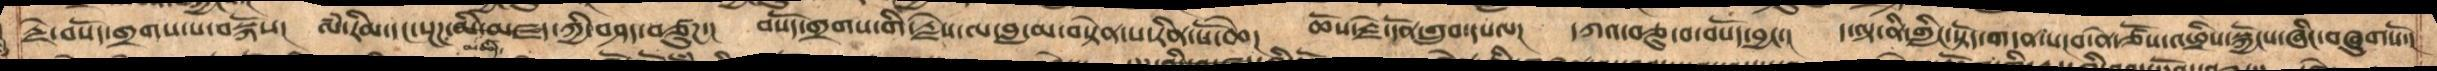རྗེ་བསོད་གྲགས་པ་བསྐོས། ལཾ་རིམ་དང་སྔཌ་མི་མཚིད་མཛད་ཀྱི་བཤད་བཙུཌ་།  བསོད་གྲགས་གི་རྗེས་ལ་བླ་མ་བསྟེན་པ་རིན་པོ་ཆེ། ཆོས་རྗེ་དོན་གྲུབ་དཔལ། དཀའ་བཅུ་བ་བསོད་བྱང་།  ད་ལྟ་ནི་གླིང་སྟོད་གདན་ས།བ་ནེ་ཙོས་འཕྲིས་སྐྱོངས་ཞིང་བཞུགསོ་།
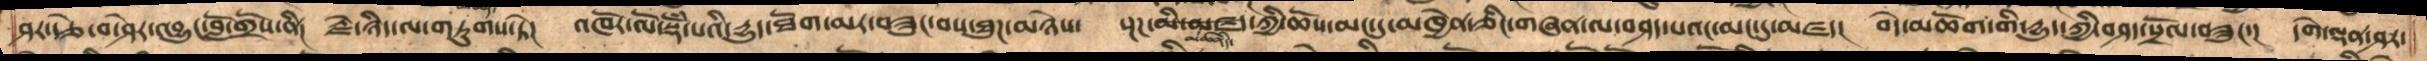ཤར་རྩེ་བ་ཤེར་འབྱུང་བློ་གྲོས་ནི། རྗེ་ཉིད་ལ་གཏུགས་ཏེ། འཁོར་ལོ་སྡོཾ་པའི་དྱུད་ཐོག་མར་བཟུང་བས་ཐུཌ་མཉེས་  སྔཌ་མི་མཛད་ཀྱི་ཆོས་མང་དུ་མཁྱེན་ཅིང་གཞན་ལ་བཤད་པའང་མང་དུ་མཛད། བདེ་མཆོག་གི་དྱུད་ཀྱི་བཤད་སྲོལ་བཟུང་།  དགེ་ལྡན་ཤར་
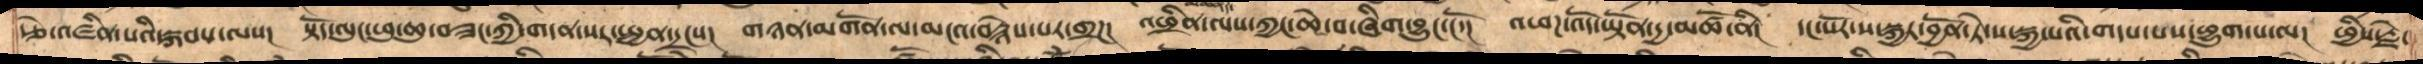རྩེ་འཛིན་པའི་སྐབས་ལས།  སྟོད་ལུང་ཕུ་ཆུ་བཟང་ཀྱི་གདན་སར་སྤྱན་དྲངས། གཉན་མགོན་ལ་མངའ་བརྙེས་པར་གྲཌ། འཕྲིས་ལས་ཀྱང་ཆེ་བ་ཞིག་བྱུང་ངོ་།། འཕཌ་འོད་ཡྟོན་དྱ་མཚོ་ནི། དང་པོར་ས་སྐྱར་བྱོན་ཏེ་ས་སྐྱ་པའི་གདས་པས་ཕྱུག་པ་ལ། ཕྱིས་རྗེ་
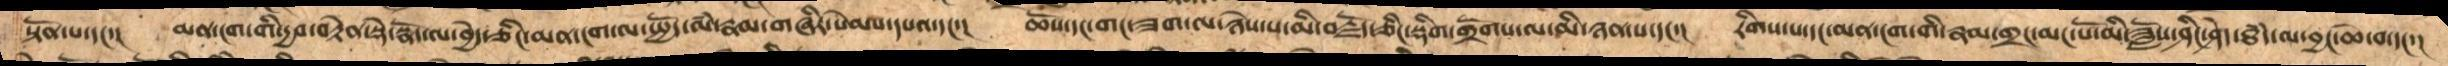སྟོན་པ་དང་།  མན་ངག་གི་དྱབ་བརྟེན་སྡེ་སྣོད་ལ་བྱེད་ཅིང་མན་ངག་ལ་སྤྱོད་ལཾ་རྣམ་གཞིར་སེམས་དཔའ་དང་།  ཆོས་དང་གང་ཟག་ལ་ཉེས་པ་མི་བརྗོད་ཅིང་སྡིག་གྲོགས་ལ་མི་ཉན་པ་དང་།  རིགས་པ་དང་མན་ངག་གི་རྣམ་གྲང་མང་པོ་མི་ཟློས་ཤིང་ཤེད་ཐཾད་ལ་བྱང་ཆེ་བ་དང་།
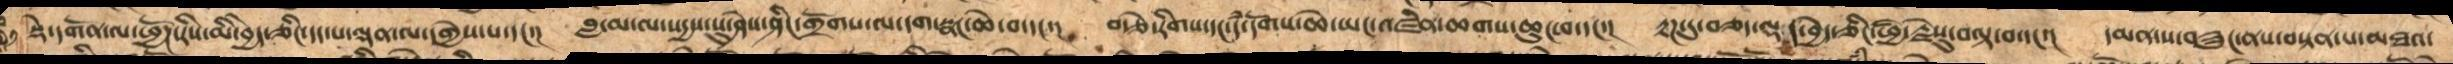སྡེ་དགོན་ལ་ཕྱོཌ་རིས་མི་བྱེད་ཅིང་དད་པ་ལྡན་ལ་དགྱེས་པ་དང་། བླ་མ་ལ་སདྱས་སུ་ཤེས་ཤིང་གྲོགས་ལ་དག་སྣང་ཆེ་བ་དང་། བརྩེ་རིགས་དང་དཾ་དོགས་ཆེ་ཡང་འཛིན་ཆགས་ཆུང་བ་དང་། རྟཌ་དུ་བཅད་ལྡར་བྱེད་ཅིང་ཕྱི་རྗེསུ་བལྟ་བ་དང། དམན་ས་བཟུང་ནས་བསྟན་པ་མཐའ་
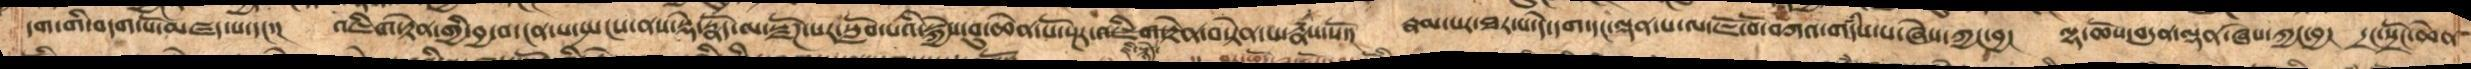དག་གི་བདག་པོ་མཛད་པ་དང་། འཇིག་རྟེན་གྱི་བྱ་བ་ངན་པ་སྤངས་ནས་སྡེ་སྣོད་ལ་སྫོཌ་པར་སློབ་པའི་སྐྱེས་བུ་ཆེན་པོ་སྔར་འཇིག་རྟེན་བསྟེན་པ་རྣཾས་སོ་།  རྣམ་པར་ཐར་པ་དེ་དག་དང་ལྡན་པ་ལ་ཇོ་བོ་བཀའ་གདཾས་པ་ཞེས་ཀྱང་བྱ། ལྷ་ཆོས་བདུན་ལྡན་ཞེས་ཀྱང་བྱ། དྲང་སྲོང་ཆེན
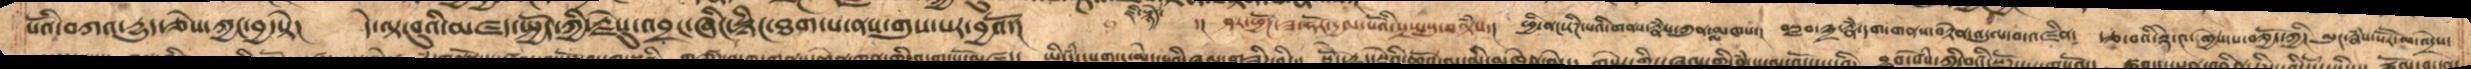པོའི་བཀའ་དྱུད་ཅེས་ཀྱང་བྱ་སྟེ། དེ་ལྟ་བུའི་མཛད་སྤྱོད་ཀྱི་རྗེསུ་འབྲང་ཞིང་སྙིང་ཐག་པ་ནས་གུས་པར་བྱའོ།  ་། ཤར་ཕྱོཌ་ཟ་ཧོར་དྱལ་པོའི་སྲས་སུ་བལྟཾས།  ཕྱི་ནང་རིཌ་པའི་གནས་རྣཾས་ཀུན་ལ་མཁས།  བསླབ་༣་རྣཾ་དག་གནས་བརྟེན་འདུལ་བ་འཛིན།  རྩ་བའི་སྡེ་༤་གྱེས་པ་བཅྱོད་ཀྱི།  ལུང་རྣཾས་སཽར་མ་འདྲེས་
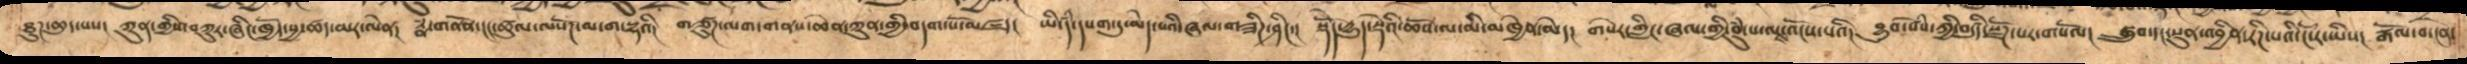ཐུཌ་ཆུད་པས།  ཀུན་གྱིས་བཀུར་ཞིང་ཁྱོད་སྱ་ཚད་མར་ལེན།  རྣཾ་གནོན་ངང་ཚུལ་ལསོཌ་མ་ག་དྷའི།  གཙུཌ་ལག་གནས་ཆེན་ཀུན་གྱི་བདག་པོ་མཛད།  ཡི་དཾ་དཔག་ཏུ་མེད་པའི་ཞལ་གཟིཌ་ཤིང་།  སྡེོད་དྱུད་སྡེའི་ཆོས་ལ་མི་མཁྱེན་མེད།  གསེར་གླིང་ཞལ་གྱི་བུཾ་པ་ལས་འོངས་པའི། བྱུབ་སེཾས་ཀྱི་བདུརྩི་སྫོཌ་པར་གསོལ།  སྒྲུབ་དང་སུན་འབྱིན་རིཌ་པའི་ང་རོ་ཡིས།  རྒོལ་བ་ངན་
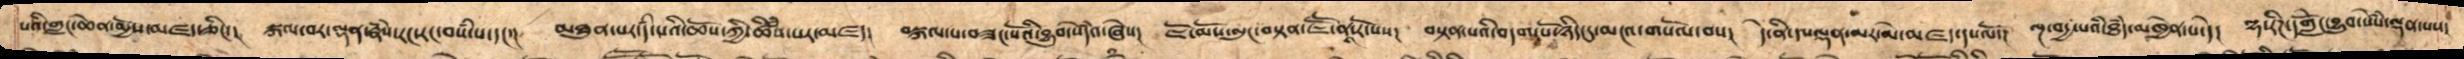པའི་གླང་ཆེན་མྱོས་མཛད་ཅིང་།  སྐལ་བར་ལྡན་རྣཾས་རང་རང་བསཾ་པ་དང་།  མཐུན་པར་དཾ་པའི་ཆོས་ཀྱི་ཚིཾས་པར་མཛད།  བསྐལ་པ་བཟང་པོའི་བྱུབ་སེདཾའ་ཞེས།  ཇོ་མོས་ལུང་བསྟན་ཇཽ་ནཱ་རོ་པས།  བསྟན་པའི་བདག་པོ་ཉིད་དུ་མངའ་གསོལ་བས།  དེ་ནི་དཔལྡན་མར་མེ་མཛད་དཔལོ་།  ལྔ་བདྱ་པའི་ཐཾད་མཁྱེན་པ་དེ།  ལྷ་རིཌ་དགླེོང་བྱུབ་སེསཾ་ལྡན་པས།
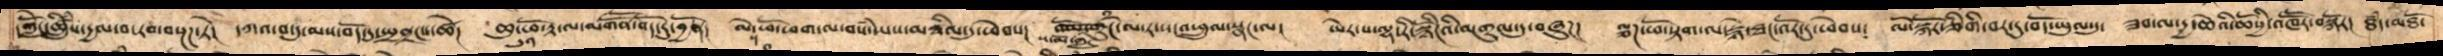དགླེོང་ཚྲིུཾས་དྱལ་བ་རབ་བསྔཌ་ཏེ།  དཀའ་བ་དུ་མས་བོད་དུ་སྤྱནྲངས་ཚེ།  ཆུ་ཕོ་རྟ་ལ་མགཽན་བོད་དུ་བྱོན།  མེ་མོ་ཕག་ལ་བསཾ་ཡས་མཐིལ་དུ་ཕེབས།  ས་མོ་གླང་ལ་ར་ས་འཕྲུལ་སྣང་ལ།  ཡེར་པ་ལྷ་རི་སྙིངོའི་མགུལ་དུ་བཞུཌ།  ལྕཌ་ཕོ་སྟག་ལ་སྙེ་ཐང་འོར་དུ་ཕེབས།  ལོ་སྐོར་ཅིགི་བར་དུ་བོད་ཡུལ་དུ་  ཟབ་ལ་དྱ་ཆེའི་ཆོསྱི་འཁཽར་བསྐོར། ཐཾད་མཐོ་
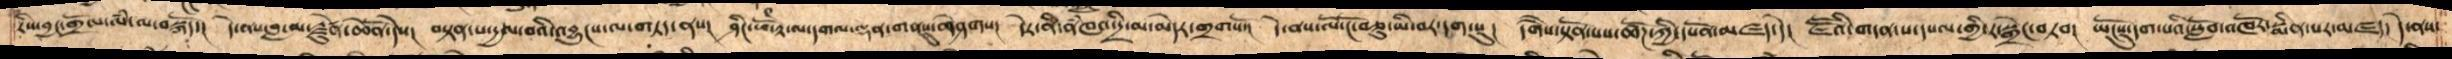རིས་བྱང་གྲོལ་ལཾ་ལ་བསྐོད།  དེ་ནས་བླ་མ་རྗེཙུན་ཆེནོ་དེས།  བསྟན་པ་དྱལ་བའི་འབྱུངས་ལ་གཏད་ནས།  ཤིང་ཕོ་རྟ་ལ་དགའ་ལྡན་གནསུ་གཤེགས།  དེར་ནི་ནཾཁའ་དྲི་མ་མེད་པར་གྲགསོ།  དེ་ནས་ལོ་ངོ་བཅུ་ཡི་བར་དག་ཏུ།  དགཻས་སྟོན་པས་ཚོཌ་ཀྱི་དཔོན་མཛད་དེ།  ཇཽའི་གདན་ས་དཔལ་གྱི་ར་སྒྲེང་བཏབ།  ཡོངསུ་དག་པའི་སློབ་འཁོར་སྨིན་པར་མཛད།  དེ་ནས་
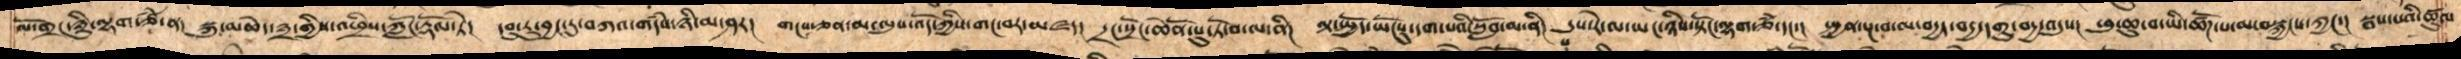ལོ་གྲང་ཉིུ་ལྷག་ཙཾ་ན།  སྐུ་མཆེད་༣་གྱིས་འཕྲིས་ཀློང་རྡོལ་ཏེ།  དབུ་རུ་བྱང་དུ་བཀའ་གདཾས་ཉི་མ་ཤར།  གངས་ཅན་མ་ལུས་འོད་ཀྱིས་གང་བར་མཛད། དྲང་སྲོང་ཆེནོ་པུ་ཏོ་བ་ལ་ནི།  ལྟ་སྤྱོད་ཡོངསུ་དག་པའི་སློབ་མ་ནི།  དུས་རེ་ལ་ཡང་ཉིས་སྟོང་ལྷག་ཙཾ་དང་།  སྤྱན་སྔ་བ་ལ་བདྱད་བདྱ་དགུ་བདྱ་འདུས།  ཕུ་ཆུང་བ་ཡི་ཚོཌ་པ་མ་བསྐྱངས་ཀྱང་།  སྦས་པའི་ཚུལ་
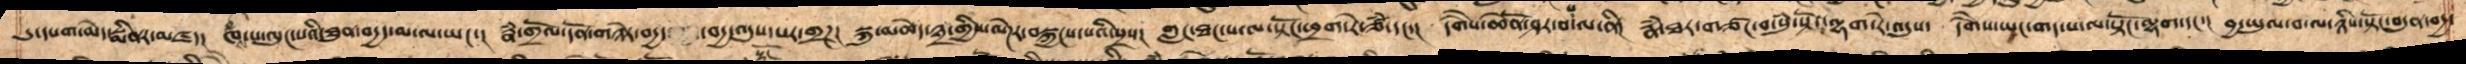དུ་དཔག་མེད་སྨིནར་མཛད། ཁཾས་པ་ལུང་པའི་ཐུན་བདྱད་མ་ལ་ཡང་།  རྣཾ་གྲོལ་དོན་གཉེར་བདྱད་བདྱ་འདུས་པར་གྲཌ།  སྐུ་མཆེད་༣་གྱིས་ལེཌར་བསྐྱངས་པའི་སྲས།  གླང་ཐང་པ་ལ་སྟོང་ཕྲག་རེ་ཙཾ་དང་།  དགཻས་ཆེནོ་ཤར་བ་པ་ལ་ནི།  རྣཾ་ཐར་གཙང་བ་སུཾ་སྟོང་ལྷག་རེ་འདུས་ དགཻས་ཡང་གད་པ་ལ་སྟོང་ལྷག་དང་།  བྱ་ཡུལ་བ་ལ་ཉིས་སྟོང་བདུན་བདྱ་
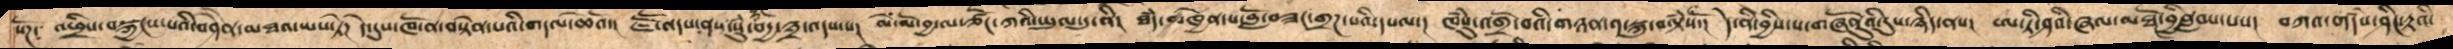སོཌ།  འཕྲིས་བསྐྱངས་པའི་བཤཻན་མཐའ་ཡས་ཏེ།  དེ་དུས་ཁོ་ན་བསྟེན་པའི་གདལ་ཆེའོ།  ཇཽ་འདས་ནས་སུཾ་བདྱ་༣་འདས་པ། མེ་མོ་བྱ་ལ་ཙོང་ཀའི་ཡུལ་དུ་ནི།  ཐཾད་མཁྱེན་པ་བློ་བཟང་གྲཌ་པའི་དཔལ།  ཁཾསུ་འགྲོ་བའི་གཉན་༡་སྐུ་བལྟཾསོ།  དེ་ནི་བྱིས་པ་གཞོནུའི་དུས་ཉིད་ནས།  ཨ་ཏི་ཤའི་ཞལ་མཐོང་བྱིནླབས་པས།  བཀའ་གདཾས་ཤིང་རྟའི་
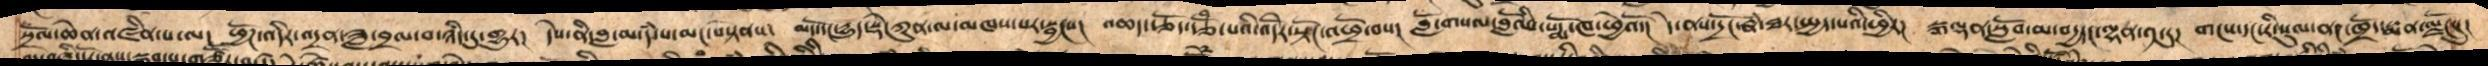སྲོལ་ཆེན་འཛིན་པ་ལ།  ཕྱོཌ་འདིར་འགྲན་ཟླ་བྲལ་བ་ཉིད་དུ་གྱུར།  དེས་ནི་བླ་མ་དཾ་པ་མང་བསྟེནས།  མདོ་དང་དྱུད་སྡེ་ཀུན་ལ་མཁས་པར་སྦྱངས།  འཆད་རྩོད་རྩོཾ་པའི་འོདེར་སྟོང་འཕྲོ་བས།  བློ་གསལ་བློའིས་པདྨ་ཁ་ཕྱེའོ།  དེ་ནས་དྲོང་རྣཾ་ཐར་སྤྱད་པའི་ཕྱིར།  སྐལྡན་སློབ་མ་བདྱད་དང་ལྷན་༡་ཏུ།  གངས་དང་རི་སུལ་ནཌ་ཁྲོད་སྨན་ལྗོངསུ།
